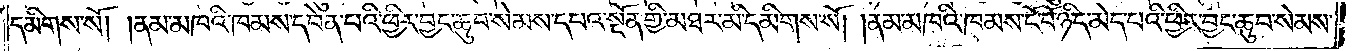དམིགས་སོ། །ནམ་མཁའི་ཁམས་དབེན་པའི་ཕྱིར་བྱང་ཆུབ་སེམས་དཔའ་སྔོན་གྱི་མཐར་མི་དམིགས་སོ། །ནམ་མཁའི་ཁམས་ངོ་བོ་ཉིད་མེད་པའི་ཕྱིར་བྱང་ཆུབ་སེམས་
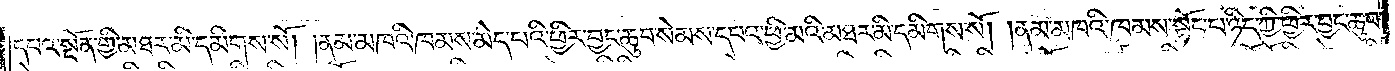དཔའ་སྔོན་གྱི་མཐར་མི་དམིགས་སོ། །ནམ་མཁའི་ཁམས་མེད་པའི་ཕྱིར་བྱང་ཆུབ་སེམས་དཔའ་ཕྱི་མའི་མཐར་མི་དམིགས་སོ། །ནམ་མཁའི་ཁམས་སྟོང་པ་ཉིད་ཀྱི་ཕྱིར་བྱང་ཆུབ་
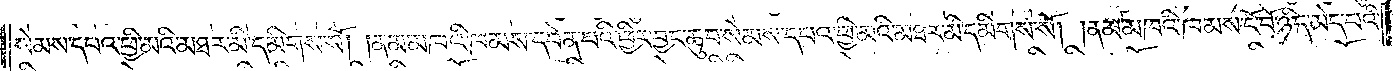སེམས་དཔའ་ཕྱི་མའི་མཐར་མི་དམིགས་སོ། །ནམ་མཁའི་ཁམས་དབེན་པའི་ཕྱིར་བྱང་ཆུབ་སེམས་དཔའ་ཕྱི་མའི་མཐར་མི་དམིགས་སོ། །ནམ་མཁའི་ཁམས་ངོ་བོ་ཉིད་མེད་པའི་
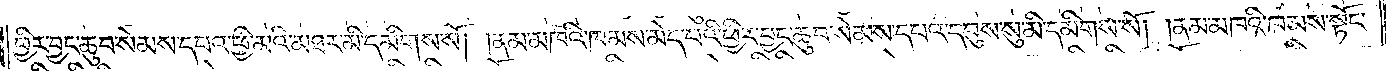ཕྱིར་བྱང་ཆུབ་སེམས་དཔའ་ཕྱི་མའི་མཐར་མི་དམིགས་སོ། །ནམ་མཁའི་ཁམས་མེད་པའི་ཕྱིར་བྱང་ཆུབ་སེམས་དཔའ་དབུས་སུ་མི་དམིགས་སོ། །ནམ་མཁའི་ཁམས་སྟོང་
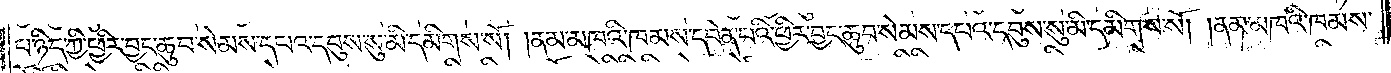པ་ཉིད་ཀྱི་ཕྱིར་བྱང་ཆུབ་སེམས་དཔའ་དབུས་སུ་མི་དམིགས་སོ། །ནམ་མཁའི་ཁམས་དབེན་པའི་ཕྱིར་བྱང་ཆུབ་སེམས་དཔའ་དབུས་སུ་མི་དམིགས་སོ། །ནམ་མཁའི་ཁམས་
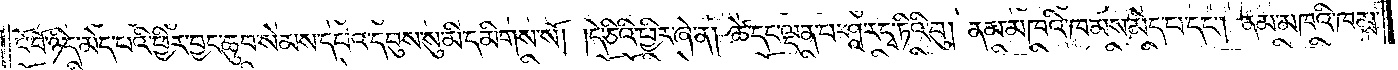ངོ་བོ་ཉིད་མེད་པའི་ཕྱིར་བྱང་ཆུབ་སེམས་དཔའ་དབུས་སུ་མི་དམིགས་སོ། །དེ་ཅིའི་ཕྱིར་ཞེ་ན། ཚེ་དང་ལྡན་པ་ཤཱ་རདྭ་ཏིའི་བུ། ནམ་མཁའི་ཁམས་མེད་པ་དང༌། ནམ་མཁའི་ཁམས་
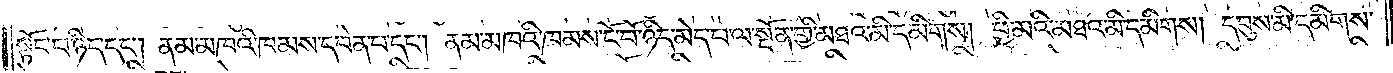སྟོང་པ་ཉིད་དང༌། ནམ་མཁའི་ཁམས་དབེན་པ་དང༌། ནམ་མཁའི་ཁམས་ངོ་བོ་ཉིད་མེད་པ་ལ་སྔོན་གྱི་མཐའ་མི་དམིགས། ཕྱི་མའི་མཐའ་མི་དམིགས། དབུས་མི་དམིགས་
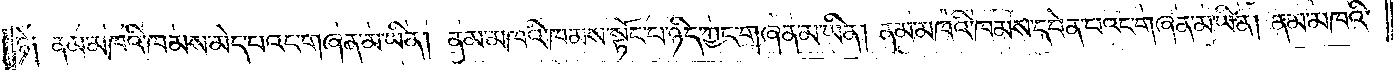ཏེ། ནམ་མཁའི་ཁམས་མེད་པའང་གཞན་མ་ཡིན། ནམ་མཁའི་ཁམས་སྟོང་པ་ཉིད་ཀྱང་གཞན་མ་ཡིན། ནམ་མཁའི་ཁམས་དབེན་པའང་གཞན་མ་ཡིན། ནམ་མཁའི་
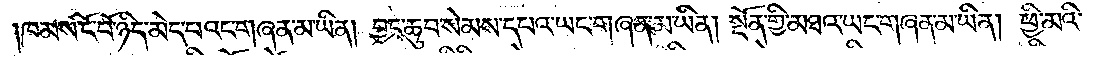ཁམས་ངོ་བོ་ཉིད་མེད་པའང་གཞན་མ་ཡིན། བྱང་ཆུབ་སེམས་དཔའ་ཡང་གཞན་མ་ཡིན། སྔོན་གྱི་མཐའ་ཡང་གཞན་མ་ཡིན། ཕྱི་མའི་
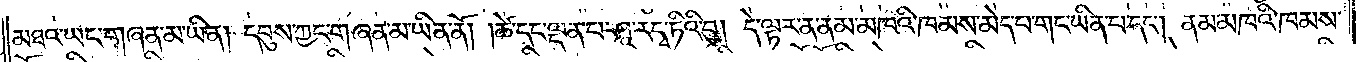མཐའ་ཡང་གཞན་མ་ཡིན། དབུས་ཀྱང་གཞན་མ་ཡིན་ནོ། །ཚེ་དང་ལྡན་པ་ཤཱ་རདྭ་ཏིའི་བུ། དེ་ལྟར་ན་ནམ་མཁའི་ཁམས་མེད་པ་གང་ཡིན་པ་དང༌། ནམ་མཁའི་ཁམས་
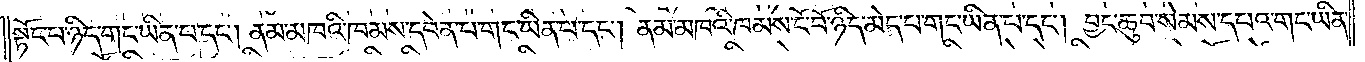སྟོང་པ་ཉིད་གང་ཡིན་པ་དང༌། ནམ་མཁའི་ཁམས་དབེན་པ་གང་ཡིན་པ་དང༌། ནམ་མཁའི་ཁམས་ངོ་བོ་ཉིད་མེད་པ་གང་ཡིན་པ་དང༌། བྱང་ཆུབ་སེམས་དཔའ་གང་ཡིན་
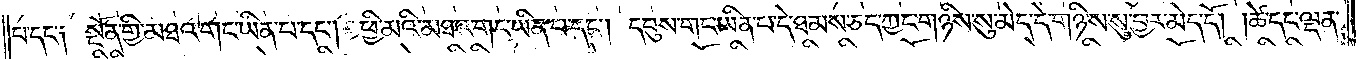པ་དང༌། སྔོན་གྱི་མཐའ་གང་ཡིན་པ་དང༌། ཕྱི་མའི་མཐའ་གང་ཡིན་པ་དང༌། དབུས་གང་ཡིན་པ་དེ་ཐམས་ཅད་ཀྱང་གཉིས་སུ་མེད་དེ་གཉིས་སུ་བྱར་མེད་དོ། །ཚེ་དང་ལྡན་
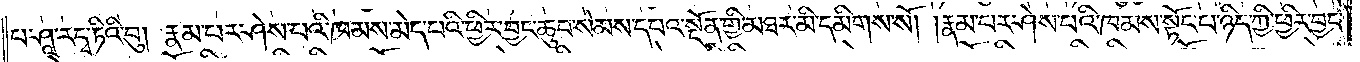པ་ཤཱ་རདྭ་ཏིའི་བུ། རྣམ་པར་ཤེས་པའི་ཁམས་མེད་པའི་ཕྱིར་བྱང་ཆུབ་སེམས་དཔའ་སྔོན་གྱི་མཐར་མི་དམིགས་སོ། །རྣམ་པར་ཤེས་པའི་ཁམས་སྟོང་པ་ཉིད་ཀྱི་ཕྱིར་བྱང་
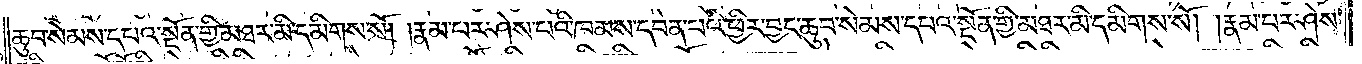ཆུབ་སེམས་དཔའ་སྔོན་གྱི་མཐར་མི་དམིགས་སོ། །རྣམ་པར་ཤེས་པའི་ཁམས་དབེན་པའི་ཕྱིར་བྱང་ཆུབ་སེམས་དཔའ་སྔོན་གྱི་མཐར་མི་དམིགས་སོ། །རྣམ་པར་ཤེས་
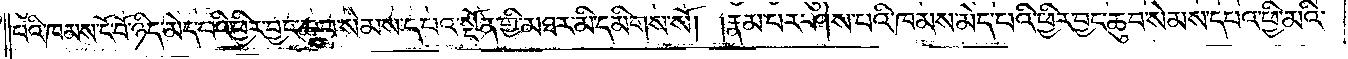པའི་ཁམས་ངོ་བོ་ཉིད་མེད་པའི་ཕྱིར་བྱང་ཆུབ་སེམས་དཔའ་སྔོན་གྱི་མཐར་མི་དམིགས་སོ། །རྣམ་པར་ཤེས་པའི་ཁམས་མེད་པའི་ཕྱིར་བྱང་ཆུབ་སེམས་དཔའ་ཕྱི་མའི་
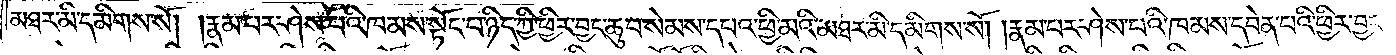མཐར་མི་དམིགས་སོ། །རྣམ་པར་ཤེས་པའི་ཁམས་སྟོང་པ་ཉིད་ཀྱི་ཕྱིར་བྱང་ཆུབ་སེམས་དཔའ་ཕྱི་མའི་མཐར་མི་དམིགས་སོ། །རྣམ་པར་ཤེས་པའི་ཁམས་དབེན་པའི་ཕྱིར་བྱང་
